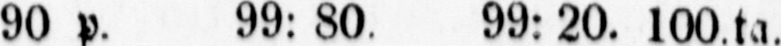90 p. 99: 80 99: 20. 100 ta.
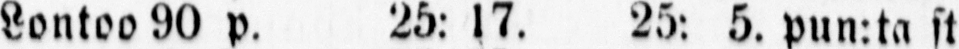Lontoo 90 p. 25: l7. 25: 5. pun:ta st.
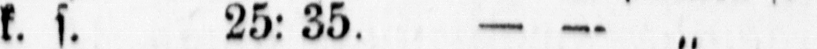k. s. 25:35, — — „
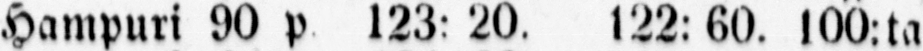Hampuri 90 p 123: 20. 122.60. 100:ta
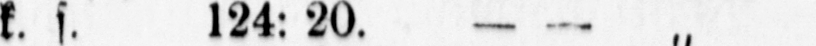k. s. 124:20. — — „
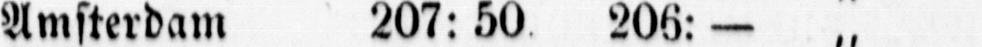Amsterdam 207:50 206:- „
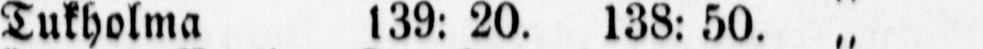Tukholma 139:20. 138:50. „
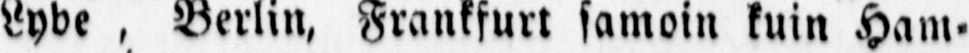Lybe , Berlin, Frankfurt samoin luin Ham-
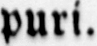puri.
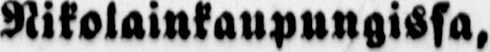Nikolainkaupungissa,
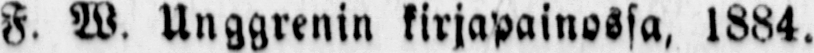F. W. Unggrenin kirjapainossa, 1884.
